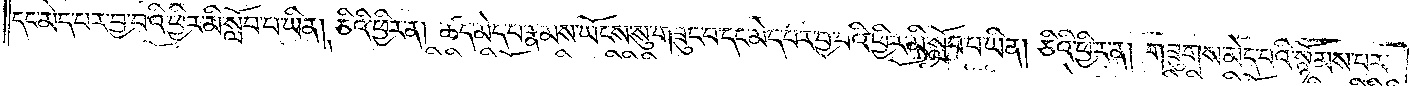དང་མེད་པར་བྱ་བའི་ཕྱིར་མི་སློབ་པ་ཡིན། ཅིའི་ཕྱིར་ན། ཚད་མེད་པ་རྣམས་ཡོངས་སུ་གཟུང་བ་དང་མེད་པར་བྱ་བའི་ཕྱིར་མི་སློབ་པ་ཡིན། ཅིའི་ཕྱིར་ན། གཟུགས་མེད་པའི་སྙོམས་པར་
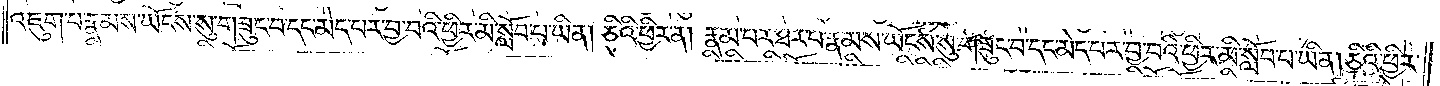འཇུག་པ་རྣམས་ཡོངས་སུ་གཟུང་བ་དང་མེད་པར་བྱ་བའི་ཕྱིར་མི་སློབ་པ་ཡིན། ཅིའི་ཕྱིར་ན། རྣམ་པར་ཐར་པ་རྣམས་ཡོངས་སུ་གཟུང་བ་དང་མེད་པར་བྱ་བའི་ཕྱིར་མི་སློབ་པ་ཡིན། ཅིའི་ཕྱིར་
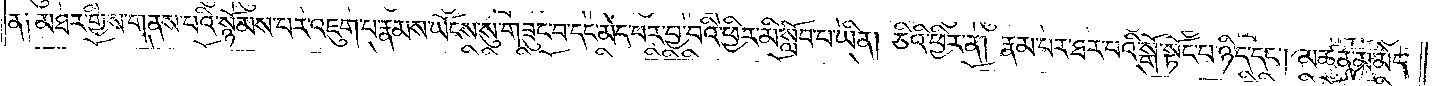ན༑ མཐར་གྱིས་གནས་པའི་སྙོམས་པར་འཇུག་པ་རྣམས་ཡོངས་སུ་གཟུང་བ་དང་མེད་པར་བྱ་བའི་ཕྱིར་མི་སློབ་པ་ཡིན། ཅིའི་ཕྱིར་ན། རྣམ་པར་ཐར་པའི་སྒོ་སྟོང་པ་ཉིད་དང༌། མཚན་མ་མེད་
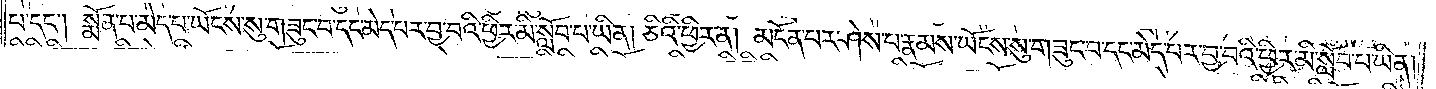པ་དང༌། སྨོན་པ་མེད་པ་ཡོངས་སུ་གཟུང་བ་དང་མེད་པར་བྱ་བའི་ཕྱིར་མི་སློབ་པ་ཡིན། ཅིའི་ཕྱིར་ན། མངོན་པར་ཤེས་པ་རྣམས་ཡོངས་སུ་གཟུང་བ་དང་མེད་པར་བྱ་བའི་ཕྱིར་མི་སློབ་པ་ཡིན།
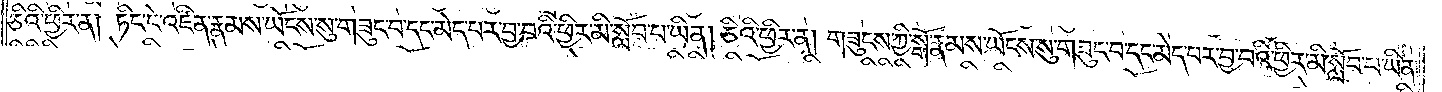ཅིའི་ཕྱིར་ན། ཏིང་ངེ་འཛིན་རྣམས་ཡོངས་སུ་གཟུང་བ་དང་མེད་པར་བྱ་བའི་ཕྱིར་མི་སློབ་པ་ཡིན། ཅིའི་ཕྱིར་ན། གཟུངས་ཀྱི་སྒོ་རྣམས་ཡོངས་སུ་གཟུང་བ་དང་མེད་པར་བྱ་བའི་ཕྱིར་མི་སློབ་པ་ཡིན།
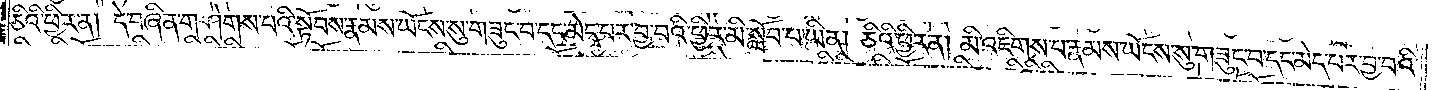ཅིའི་ཕྱིར་ན། དེ་བཞིན་གཤེགས་པའི་སྟོབས་རྣམས་ཡོངས་སུ་གཟུང་བ་དང་མེད་པར་བྱ་བའི་ཕྱིར་མི་སློབ་པ་ཡིན། ཅིའི་ཕྱིར་ན། མི་འཇིགས་པ་རྣམས་ཡོངས་སུ་གཟུང་བ་དང་མེད་པར་བྱ་བའི་
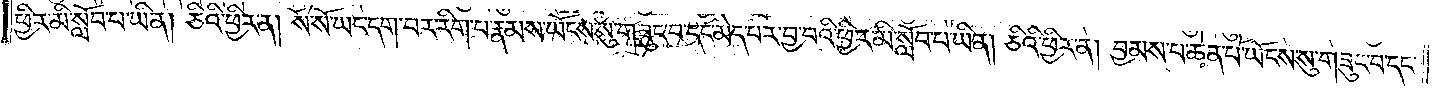ཕྱིར་མི་སློབ་པ་ཡིན། ཅིའི་ཕྱིར་ན། སོ་སོ་ཡང་དག་པར་རིག་པ་རྣམས་ཡོངས་སུ་གཟུང་བ་དང་མེད་པར་བྱ་བའི་ཕྱིར་མི་སློབ་པ་ཡིན། ཅིའི་ཕྱིར་ན། བྱམས་པ་ཆེན་པོ་ཡོངས་སུ་གཟུང་བ་དང་
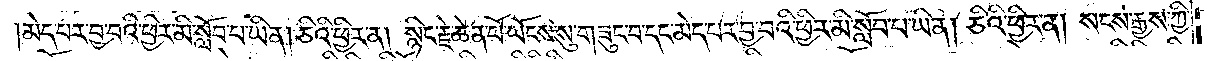མེད་པར་བྱ་བའི་ཕྱིར་མི་སློབ་པ་ཡིན། ཅིའི་ཕྱིར་ན། སྙིང་རྗེ་ཆེན་པོ་ཡོངས་སུ་གཟུང་བ་དང་མེད་པར་བྱ་བའི་ཕྱིར་མི་སློབ་པ་ཡིན། ཅིའི་ཕྱིར་ན། སངས་རྒྱས་ཀྱི་
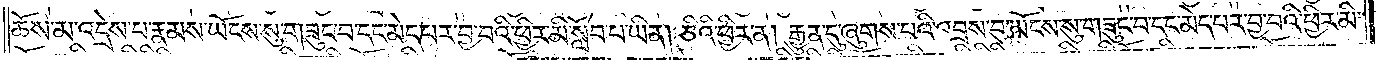ཆོས་མ་འདྲེས་པ་རྣམས་ཡོངས་སུ་གཟུང་བ་དང་མེད་པར་བྱ་བའི་ཕྱིར་མི་སློབ་པ་ཡིན། ཅིའི་ཕྱིར་ན། རྒྱུན་དུ་ཞུགས་པའི་འབྲས་བུ་ཡོངས་སུ་གཟུང་བ་དང་མེད་པར་བྱ་བའི་ཕྱིར་མི་
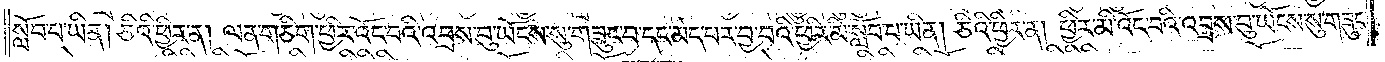སློབ་པ་ཡིན། ཅིའི་ཕྱིར་ན། ལན་གཅིག་ཕྱིར་འོང་བའི་འབྲས་བུ་ཡོངས་སུ་གཟུང་བ་དང་མེད་པར་བྱ་བའི་ཕྱིར་མི་སློབ་པ་ཡིན། ཅིའི་ཕྱིར་ན། ཕྱིར་མི་འོང་བའི་འབྲས་བུ་ཡོངས་སུ་གཟུང་
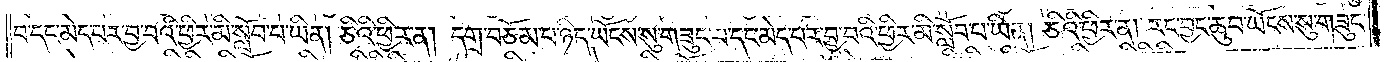བ་དང་མེད་པར་བྱ་བའི་ཕྱིར་མི་སློབ་པ་ཡིན། ཅིའི་ཕྱིར་ན། དགྲ་བཅོམ་པ་ཉིད་ཡོངས་སུ་གཟུང་བ་དང་མེད་པར་བྱ་བའི་ཕྱིར་མི་སློབ་པ་ཡིན། ཅིའི་ཕྱིར་ན། རང་བྱང་ཆུབ་ཡོངས་སུ་གཟུང་
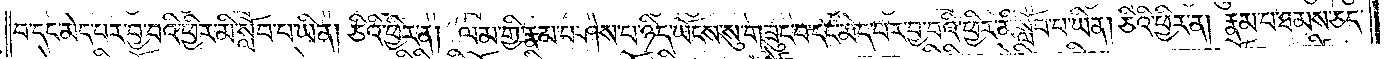བ་དང་མེད་པར་བྱ་བའི་ཕྱིར་མི་སློབ་པ་ཡིན། ཅིའི་ཕྱིར་ན། ལམ་གྱི་རྣམ་པ་ཤེས་པ་ཉིད་ཡོངས་སུ་གཟུང་བ་དང་མེད་པར་བྱ་བའི་ཕྱིར་མི་སློབ་པ་ཡིན། ཅིའི་ཕྱིར་ན། རྣམ་པ་ཐམས་ཅད་
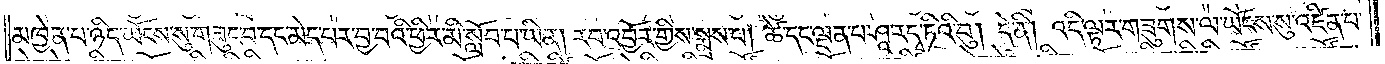མཁྱེན་པ་ཉིད་ཡོངས་སུ་གཟུང་བ་དང་མེད་པར་བྱ་བའི་ཕྱིར་མི་སློབ་པ་ཡིན། རབ་འབྱོར་གྱིས་སྨྲས་པ། ཚ་དང་ལྡན་པ་ཤཱ་ར་དྭ་ཏིའི་བུ། དེ་ནི། འདི་ལྟར་གཟུགས་ལ་ཡོངས་སུ་འཛིན་པ་
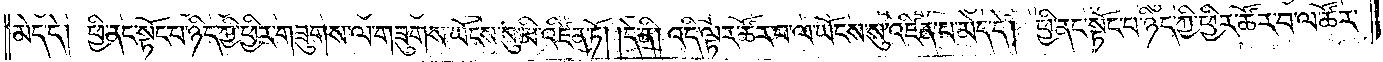མེད་དེ། ཕྱི་ནང་སྟོང་པ་ཉིད་ཀྱི་ཕྱིར་གཟུགས་ལ་གཟུགས་ཡོངས་སུ་མི་འཛིན་ཏོ། །དེ་ནི། འདི་ལྟར་ཚོར་བ་ལ་ཡོངས་སུ་འཛིན་པ་མེད་དེ། ཕྱི་ནང་སྟོང་པ་ཉིད་ཀྱི་ཕྱིར་ཚོར་བ་ལ་ཚོར་
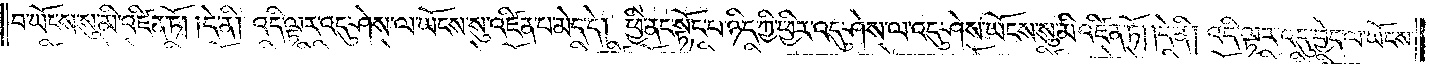བ་ཡོངས་སུ་མི་འཛིན་ཏོ། །དེ་ནི། འདི་ལྟར་འདུ་ཤེས་ལ་ཡོངས་སུ་འཛིན་པ་མེད་དེ། ཕྱི་ནང་སྟོང་པ་ཉིད་ཀྱི་ཕྱིར་འདུ་ཤེས་ལ་འདུ་ཤེས་ཡོངས་སུ་མི་འཛིན་ཏོ། །དེ་ནི། འདི་ལྟར་འདུ་བྱེད་ལ་ཡོངས་
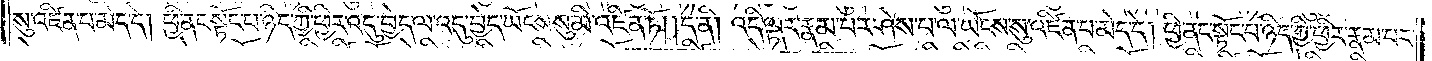སུ་འཛིན་པ་མེད་དེ། ཕྱི་ནང་སྟོང་པ་ཉིད་ཀྱི་ཕྱིར་འདུ་བྱེད་ལ་འདུ་བྱེད་ཡོངས་སུ་མི་འཛིན་ཏོ། །དེ་ནི། འདི་ལྟར་རྣམ་པར་ཤེས་པ་ལ་ཡོངས་སུ་འཛིན་པ་མེད་དེ། ཕྱི་ནང་སྟོང་པ་ཉིད་ཀྱི་ཕྱིར་རྣམ་པར་
